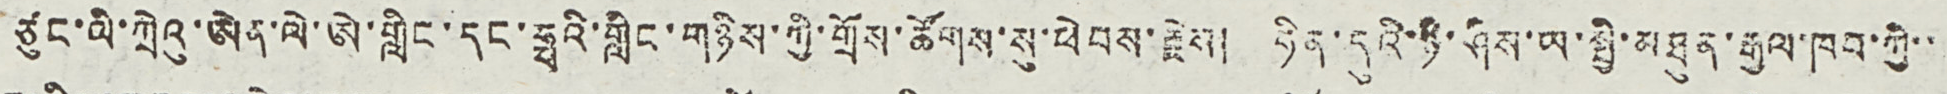ཙུང་ལི་ཀྲེའུ་ཨེན་ལེ་ཨེ་གླིང་དང་ཧྥའི་གླིང་གཉིས་ཀྱི་གྲོས་ཚོགས་སུ་ཕེབས་རྗེས། ཧིན་དུའི་ཉི་ཤིས་ཡ་སྤྱི་མཐུན་རྒྱལ་ཁབ་ཀྱི་་
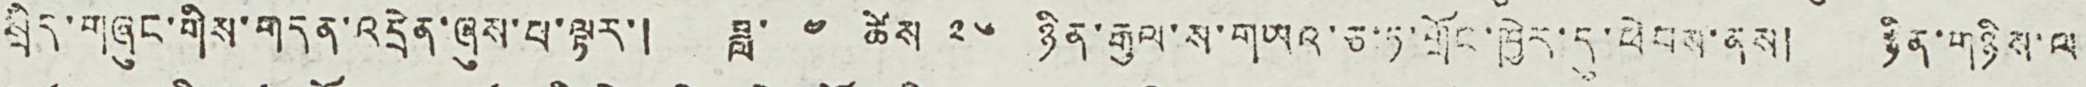སྲིད་གཞུང་གིས་གདན་འདྲེན་ཞུས་པ་ལྟར་། ཟླ་ ༤ ཚེས ༢༦ ཉིན་རྒྱལ་ས་གཡའ་ཅ་ཏ་གྲོང་ཁྱེར་དུ་ཕེབས་ནས། ཉིན་གཉིས་ལ
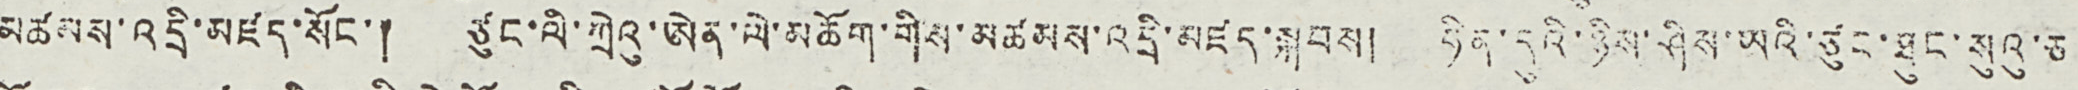མཚམས་འདྲི་མཛད་སོང་། ཙུང་ལི་ཀྲེའུ་ཨེན་ལེ་མཆོག་གིས་མཚམས་འདྲི་མཛད་སྐབས། ཧིན་དུའི་ཉིས་ཤིས་ཡའི་ཙུང་ཐུང་སུའུ་ཅ
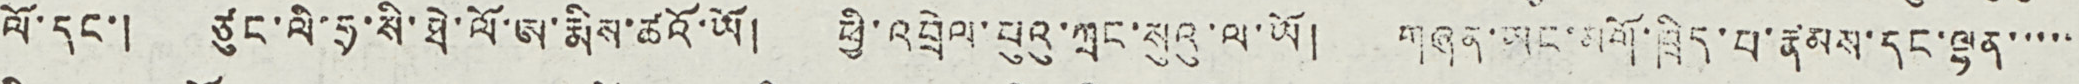ལོ་དང་། ཙུང་ལི་ཧྲ་སི་ཐེ་ལོ་ཨ་རྨིས་ཚའོ་ཡོ། ཕྱི་འབྲེལ་པུའུ་ཀྲང་སུའུ་ལ་ཡོ། གཞན་ཡང་མགོ་ཁྲིད་པ་རྣམས་དང་ལྷན་་་་་
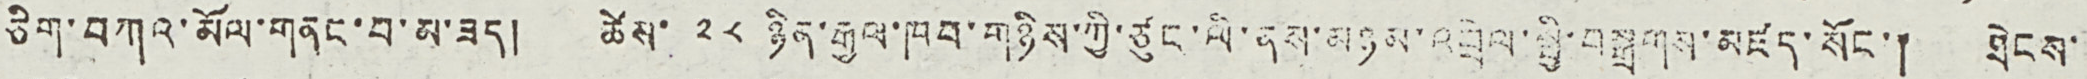ཅིག་བཀའ་མོལ་གནང་བ་མ་ཟད། ཚེས་ ༢༨ ཉིན་རྒྱལ་ཁབ་གཉིས་ཀྱི་ཙུང་ལི་ནས་མཉམ་འབྲེལ་སྤྱི་བསྒྲགས་མཛད་སོང་། ཐེངས་
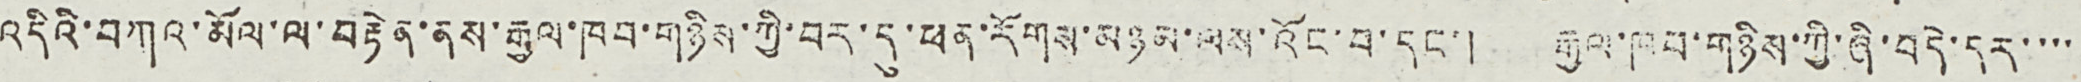འདིའི་བཀའ་མོལ་ལ་བརྟེན་ནས་རྒྱལ་ཁབ་གཉིས་ཀྱི་བར་དུ་ཕན་རོགས་མཉམ་ལས་འོང་བ་དང་། རྒྱལ་ཁབ་གཉིས་ཀྱི་ཞི་བདེ་དར་་་་
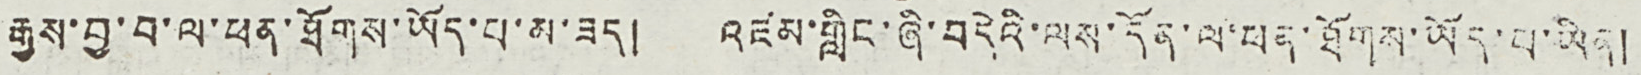རྒྱས་བྱ་བ་ལ་ཕན་ཐོགས་ཡོད་པ་མ་ཟད། འཛམ་གླིང་ཞི་བའདེའི་ལས་དོན་ལ་ཕན་ཐོགས་ཡོད་པ་ཡིན།
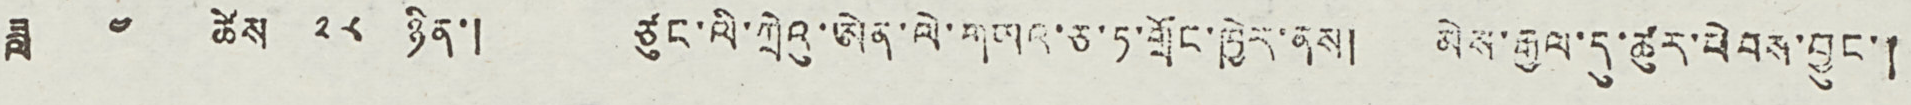ཟླ ༤ ཚེས ༢༨ ཉིན་། ཙུང་ལི་ཀྲེའུ་ཨེན་ལེ་གཡའ་ཅ་ཏ་གྲོང་ཁྱེར་ནས། མེས་རྒྱལ་དུ་ཚུར་ཕེབས་བྱུང་།
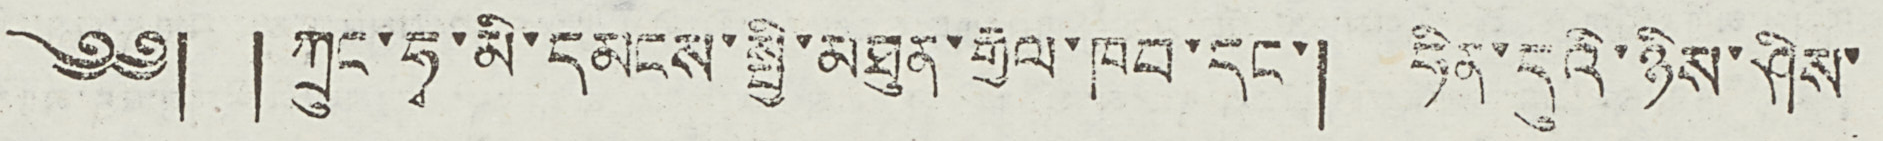༄༅། ། ཀྲུང་ཧྭ་མི་དམངས་སྤྱི་མཐུན་རྒྱལ་ཁབ་དང་། ཧིན་དུའི་ཉིས་ཤིས་
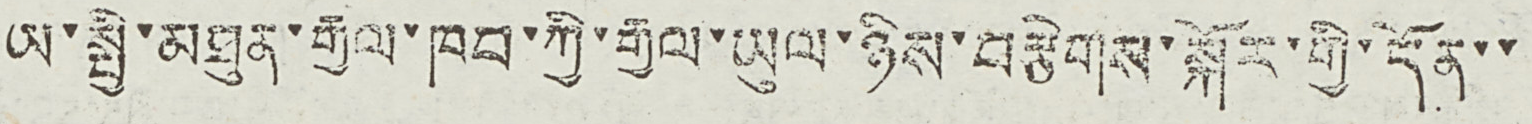ཡ་སྤྱི་མཐུན་རྒྱལ་ཁབ་ཀྱི་རྒྱལ་ཡུལ་ཉིས་བརྩེགས་སྐོར་གྱི་དོན་་
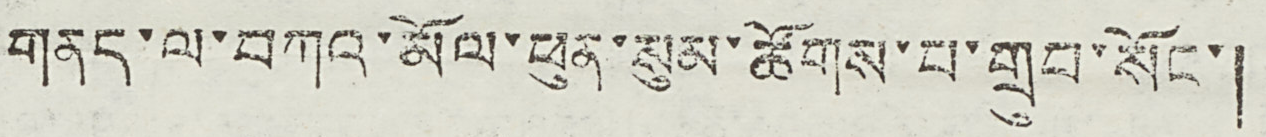གནད་ལ་བཀའ་མོལ་ཕུན་སུམ་ཚོགས་པ་གྲུབ་སོང་།
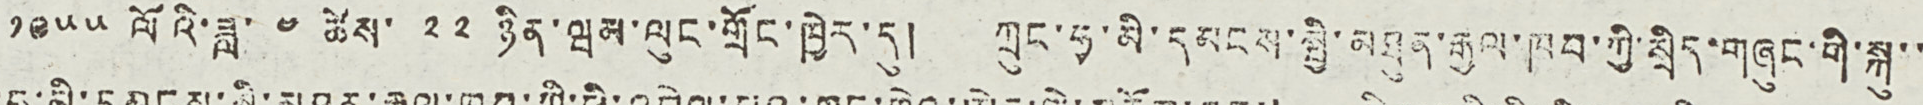༡༩༥༥ ལོའི་ཟླ་ ༤ ཚེས་ ༢༢ ཉིན་ཝམ་ལུང་གྲོང་ཁྱེར་དུ། ཀྲུང་ཧྭ་མི་དམངས་སྤྱི་མཐུན་རྒྱལ་ཁབ་ཀྱི་སྲིད་གཞུང་གི་སྐུ་་
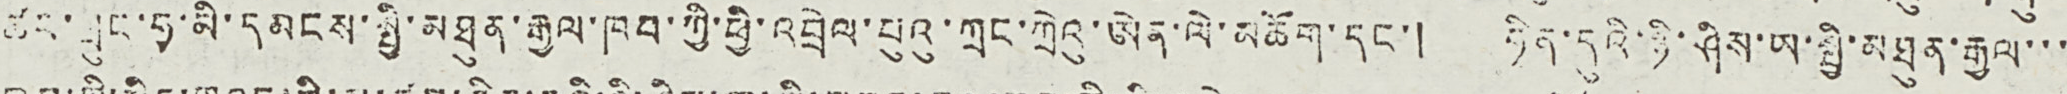ཚབ་ཀྲུང་ཧྭ་མི་དམངས་སྤྱི་མཐུན་རྒྱལ་ཁབ་ཀྱི་ཕྱི་འབྲེལ་པུའུ་ཀྲང་ཀྲེའུ་ཨེན་ལེ་མཆོག་དང་། ཧིན་དུའི་ཉི་ཤིས་ཡ་སྤྱི་མཐུན་རྒྱལ་་་
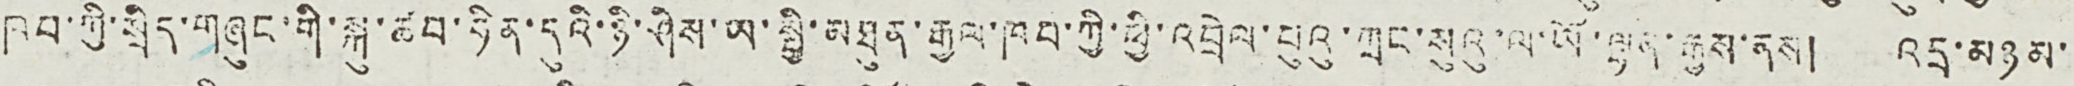ཁབ་ཀྱི་སྲིད་གཞུང་གི་སྐུ་ཚབ་ཧིན་དུའི་ཉི་ཤིས་ཡ་སྤྱི་མཐུན་རྒྱལ་ཁབ་ཀྱི་ཕྱི་འབྲེལ་པུའུ་ཀྲང་སུའུ་ལ་ཡོ་ལྷན་རྒྱས་ནས། འདྲ་མཉམ་
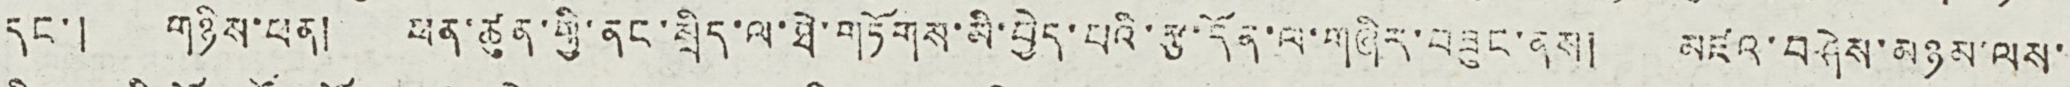དང་། གཉིས་ཕན། ཕན་ཚུན་གྱི་ནང་སྲིད་ལ་ཐེ་གཏོགས་མི་བྱེད་པའི་རྩ་དོན་ལ་གཞིར་བཟུང་ནས། མཛའ་བཤེས་མཉམ་ལས་
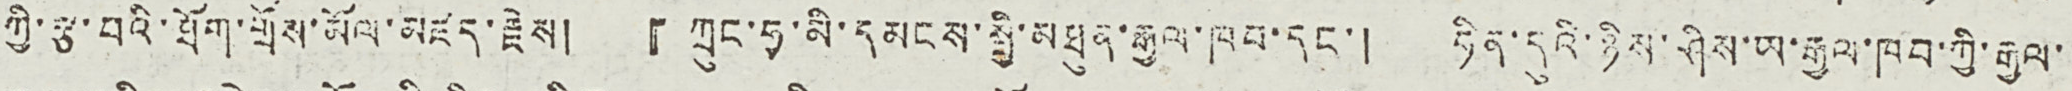ཀྱི་རྩ་བའི་ཐོག་གྲོས་མོལ་མཛད་རྗེས། 『ཀྲུང་ཧྭ་མི་དམངས་སྤྱི་མཐུན་རྒྱལ་ཁབ་དང་། ཧིན་དུའི་ཉིས་ཤིས་ཡ་རྒྱལ་ཁབ་ཀྱི་རྒྱལ་
